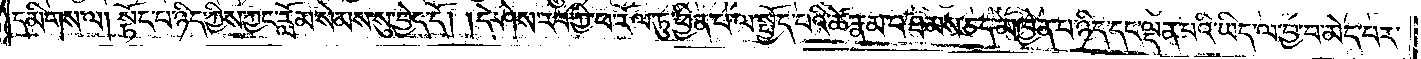དམིགས་ལ། སྟོང་པ་ཉིད་ཀྱིས་ཀྱང་རློམ་སེམས་སུ་བྱེད་དོ། །དེ་ཤེས་རབ་ཀྱི་ཕ་རོལ་ཏུ་ཕྱིན་པ་ལ་སྤྱོད་པའི་ཚེ་རྣམ་པ་ཐམས་ཅད་མཁྱེན་པ་ཉིད་དང་ལྡན་པའི་ཡིད་ལ་བྱ་བ་མེད་པར་
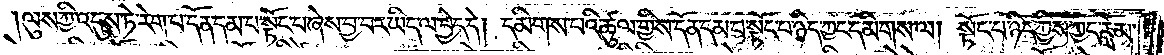ལུས་ཀྱི་འདུས་ཏེ་རེག་པ་དོན་དམ་པ་སྟོང་པ་ཞེས་བྱ་བར་ཡིད་ལ་བྱེད་དེ། དམིགས་པའི་ཚུལ་གྱིས་དོན་དམ་པ་སྟོང་པ་ཉིད་ཀྱང་དམིགས་ལ། སྟོང་པ་ཉིད་ཀྱིས་ཀྱང་རློམ་
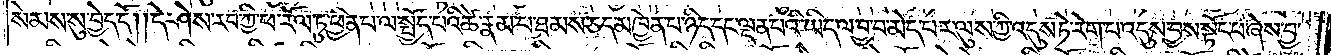སེམས་སུ་བྱེད་དོ། །དེ་ཤེས་རབ་ཀྱི་ཕ་རོལ་ཏུ་ཕྱིན་པ་ལ་སྤྱོད་པའི་ཚེ་རྣམ་པ་ཐམས་ཅད་མཁྱེན་པ་ཉིད་དང་ལྡན་པའི་ཡིད་ལ་བྱ་བ་མེད་པར་ལུས་ཀྱི་འདུས་ཏེ་རེག་པ་འདུས་བྱས་སྟོང་པ་ཞེས་བྱ་
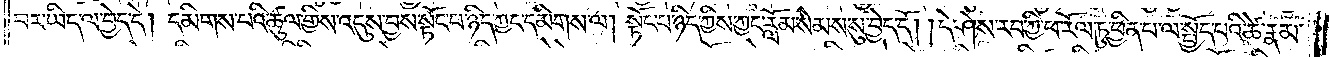བར་ཡིད་ལ་བྱེད་དེ། དམིགས་པའི་ཚུལ་གྱིས་འདུས་བྱས་སྟོང་པ་ཉིད་ཀྱང་དམིགས་ལ། སྟོང་པ་ཉིད་ཀྱིས་ཀྱང་རློམ་སེམས་སུ་བྱེད་དོ། །དེ་ཤེས་རབ་ཀྱི་ཕ་རོལ་ཏུ་ཕྱིན་པ་ལ་སྤྱོད་པའི་ཚེ་རྣམ་
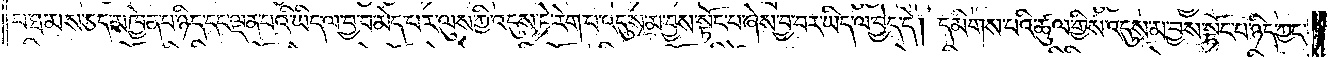པ་ཐམས་ཅད་མཁྱེན་པ་ཉིད་དང་ལྡན་པའི་ཡིད་ལ་བྱ་བ་མེད་པར་ལུས་ཀྱི་འདུས་ཏེ་རེག་པ་འདུས་མ་བྱས་སྟོང་པ་ཞེས་བྱ་བར་ཡིད་ལ་བྱེད་དེ། དམིགས་པའི་ཚུལ་གྱིས་འདུས་མ་བྱས་སྟོང་པ་ཉིད་ཀྱང་
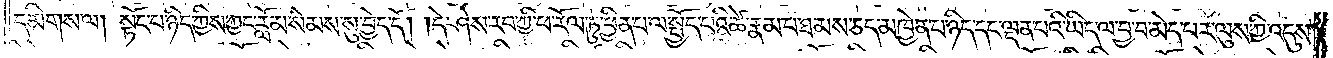དམིགས་ལ། སྟོང་པ་ཉིད་ཀྱིས་ཀྱང་རློམ་སེམས་སུ་བྱེད་དོ། །དེ་ཤེས་རབ་ཀྱི་ཕ་རོལ་ཏུ་ཕྱིན་པ་ལ་སྤྱོད་པའི་ཚེ་རྣམ་པ་ཐམས་ཅད་མཁྱེན་པ་ཉིད་དང་ལྡན་པའི་ཡིད་ལ་བྱ་བ་མེད་པར་ལུས་ཀྱི་འདུས་
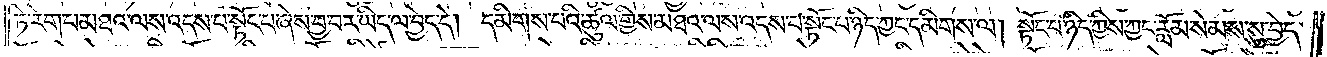ཏེ་རེག་པ་མཐའ་ལས་འདས་པ་སྟོང་པ་ཞེས་བྱ་བར་ཡིད་ལ་བྱེད་དེ། དམིགས་པའི་ཚུལ་གྱིས་མཐའ་ལས་འདས་པ་སྟོང་པ་ཉིད་ཀྱང་དམིགས་ལ། སྟོང་པ་ཉིད་ཀྱིས་ཀྱང་རློམ་སེམས་སུ་བྱེད་
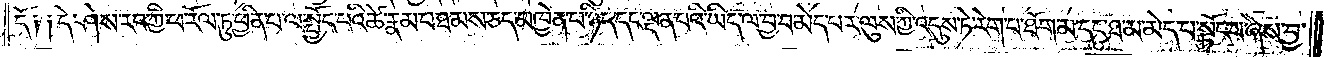དོ༑ ༑དེ་ཤེས་རབ་ཀྱི་ཕ་རོལ་ཏུ་ཕྱིན་པ་ལ་སྤྱོད་པའི་ཚེ་རྣམ་པ་ཐམས་ཅད་མཁྱེན་པ་ཉིད་དང་ལྡན་པའི་ཡིད་ལ་བྱ་བ་མེད་པར་ལུས་ཀྱི་འདུས་ཏེ་རེག་པ་ཐོག་མ་དང་ཐ་མ་མེད་པ་སྟོང་པ་ཞེས་བྱ་
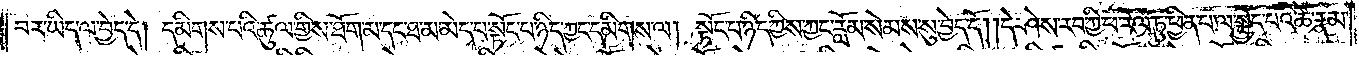བར་ཡིད་ལ་བྱེད་དེ། དམིགས་པའི་ཚུལ་གྱིས་ཐོག་མ་དང་ཐ་མ་མེད་པ་སྟོང་པ་ཉིད་ཀྱང་དམིགས་ལ། སྟོང་པ་ཉིད་ཀྱིས་ཀྱང་རློམ་སེམས་སུ་བྱེད་དོ། །དེ་ཤེས་རབ་ཀྱི་ཕ་རོལ་ཏུ་ཕྱིན་པ་ལ་སྤྱོད་པའི་ཚེ་རྣམ་
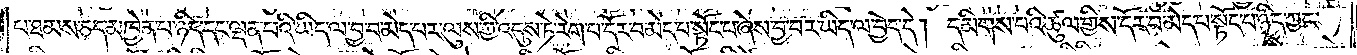པ་ཐམས་ཅད་མཁྱེན་པ་ཉིད་དང་ལྡན་པའི་ཡིད་ལ་བྱ་བ་མེད་པར་ལུས་ཀྱི་འདུས་ཏེ་རེག་པ་དོར་བ་མེད་པ་སྟོང་པ་ཞེས་བྱ་བར་ཡིད་ལ་བྱེད་དེ། དམིགས་པའི་ཚུལ་གྱིས་དོར་བ་མེད་པ་སྟོང་པ་ཉིད་ཀྱང་
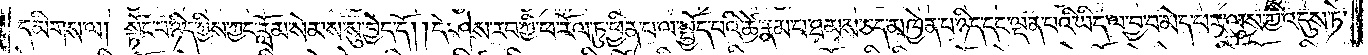དམིགས་ལ། སྟོང་པ་ཉིད་ཀྱིས་ཀྱང་རློམ་སེམས་སུ་བྱེད་དོ། །དེ་ཤེས་རབ་ཀྱི་ཕ་རོལ་ཏུ་ཕྱིན་པ་ལ་སྤྱོད་པའི་ཚེ་རྣམ་པ་ཐམས་ཅད་མཁྱེན་པ་ཉིད་དང་ལྡན་པའི་ཡིད་ལ་བྱ་བ་མེད་པར་ལུས་ཀྱི་འདུས་ཏེ་
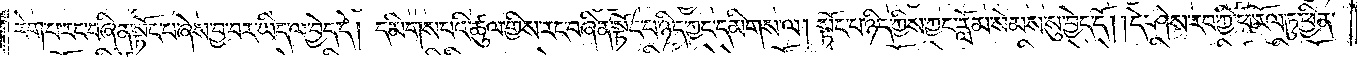རེག་པ་རང་བཞིན་སྟོང་པ་ཞེས་བྱ་བར་ཡིད་ལ་བྱེད་དེ། དམིགས་པའི་ཚུལ་གྱིས་རང་བཞིན་སྟོང་པ་ཉིད་ཀྱང་དམིགས་ལ། སྟོང་པ་ཉིད་ཀྱིས་ཀྱང་རློམ་སེམས་སུ་བྱེད་དོ། །དེ་ཤེས་རབ་ཀྱི་ཕ་རོལ་ཏུ་ཕྱིན་
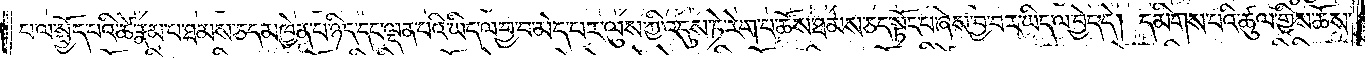པ་ལ་སྤྱོད་པའི་ཚེ་རྣམ་པ་ཐམས་ཅད་མཁྱེན་པ་ཉིད་དང་ལྡན་པའི་ཡིད་ལ་བྱ་བ་མེད་པར་ལུས་ཀྱི་འདུས་ཏེ་རེག་པ་ཆོས་ཐམས་ཅད་སྟོང་པ་ཞེས་བྱ་བར་ཡིད་ལ་བྱེད་དེ། དམིགས་པའི་ཚུལ་གྱིས་ཆོས་
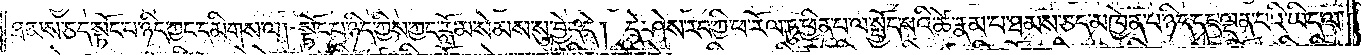ཐམས་ཅད་སྟོང་པ་ཉིད་ཀྱང་དམིགས་ལ། སྟོང་པ་ཉིད་ཀྱིས་ཀྱང་རློམ་སེམས་སུ་བྱེད་དེ། དེ་ཤེས་རབ་ཀྱི་ཕ་རོལ་ཏུ་ཕྱིན་པ་ལ་སྤྱོད་པའི་ཚེ་རྣམ་པ་ཐམས་ཅད་མཁྱེན་པ་ཉིད་དང་ལྡན་པའི་ཡིད་ལ་
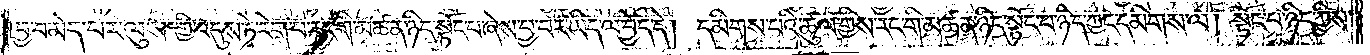བྱ་བ་མེད་པར་ལུས་ཀྱི་འདུས་ཏེ་རེག་པ་རང་གི་མཚན་ཉིད་སྟོང་པ་ཞེས་བྱ་བར་ཡིད་ལ་བྱེད་དེ། དམིགས་པའི་ཚུལ་གྱིས་རང་གི་མཚན་ཉིད་སྟོང་པ་ཉིད་ཀྱང་དམིགས་ལ། སྟོང་པ་ཉིད་ཀྱིས་
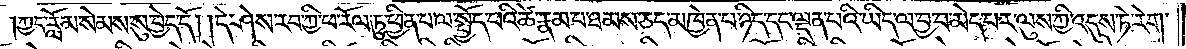ཀྱང་རློམ་སེམས་སུ་བྱེད་དོ། །དེ་ཤེས་རབ་ཀྱི་ཕ་རོལ་ཏུ་ཕྱིན་པ་ལ་སྤྱོད་པའི་ཚེ་རྣམ་པ་ཐམས་ཅད་མཁྱེན་པ་ཉིད་དང་ལྡན་པའི་ཡིད་ལ་བྱ་བ་མེད་པར་ལུས་ཀྱི་འདུས་ཏེ་རེག་
